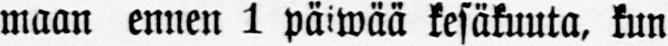maan ennen 1 päiwää kesäkuuta, kun
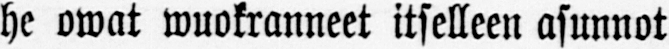he owat wuokranneet itselleen asunnot
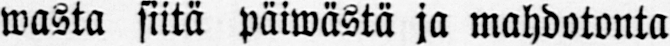wasta siitä päiwästä ja mahdotonta
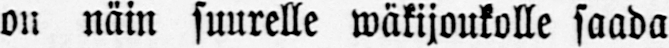on näin suurelle wäkijoukolle saada
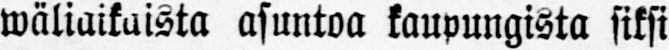wäliaikaista asuntoa kaupungista siksi
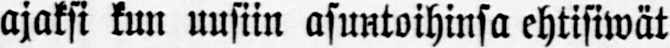ajaksi kun uusiin asuntoihinsa ehtisiwät
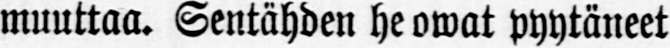muuttaa. Sentähden he owat pyytäneet
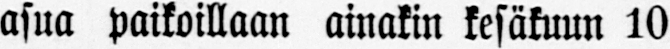asua paikoillaan ainakin kesäkuun 10
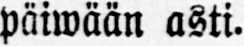päiwään asti.
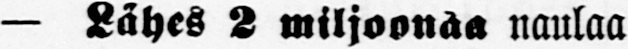— Lähes 2 miljoonaa naulaa
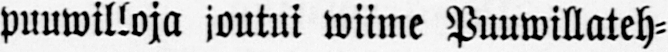puuwilloja joutui wiime Puuwillateh-
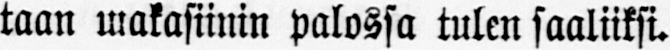taan makasiinin palossa tulen saaliiksi.
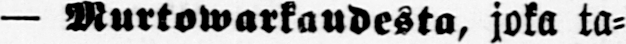— Murtowarkaudesta, joka ta-
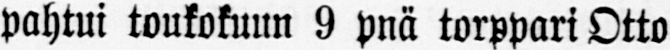pahtui toukokuun 9 pnä torppari Otto
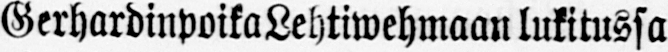Gerhardinpoika Lehtiwehmaan lukitussa
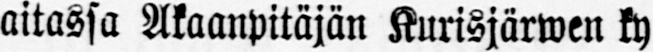aitassa Akaanpitäjän Kurisjärwen ky
